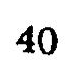40
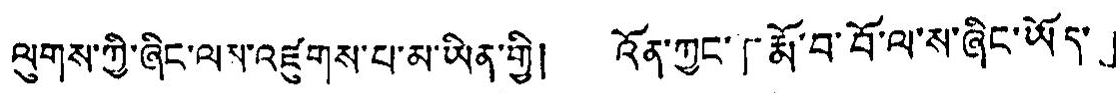ལུགས་ཀྱི་ཞིང་ལས་འཛུགས་པ་མ་ཡིན་གྱི། འོན་ཀྱང་「རྨོ་བ་བོ་ལ་ས་ཞིང་ཡོད་」
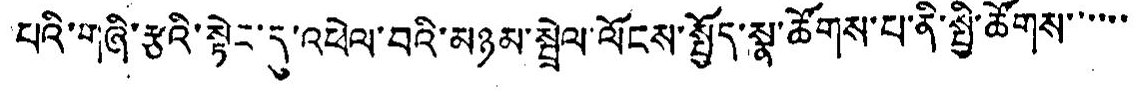པའི་གཞི་རྩའི་སྟེང་དུ་འཕེལ་བའི་མཉམ་སྦྲེལ་ལོངས་སྤྱོད་སྣ་ཚོགས་པ་ནི་སྤྱི་ཚོགས་་་་་་
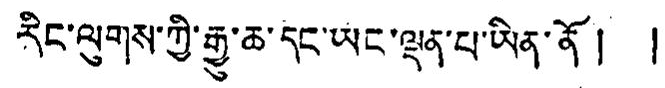རིང་ལུགས་ཀྱི་རྒྱུ་ཆ་དང་ཡང་ལྡན་པ་ཡིན་ནོ། །
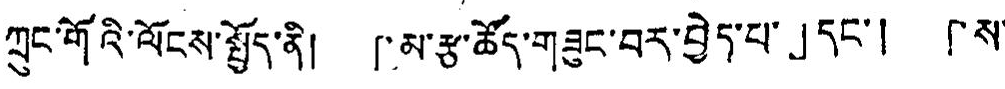ཀྲུང་གོའི་ལོངས་སྤྱོད་ནི། 「མ་རྩ་ཚོད་གཟུང་བར་བྱེད་པ་」དང་། 「ས་
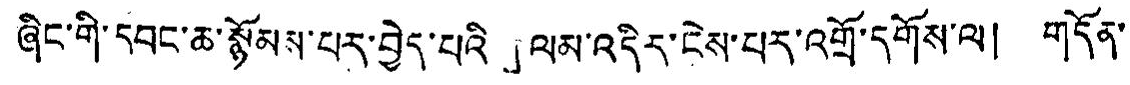ཞིང་གི་དབང་ཆ་སྙོམས་པར་བྱེད་པའི་」ལམ་འདིར་ངེས་པར་འགྲོ་དགོས་ལ། གདོན་
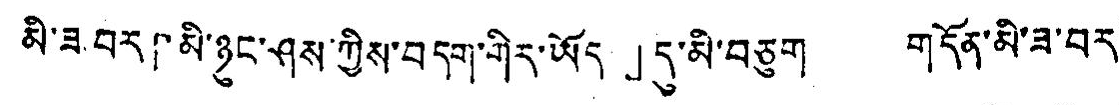མི་ཟ བར「མི་ཉང་ཤས་ཀྱིས་བདག་གིར་ཡོད」དུ་མི་བཅུག གདོན་མི་ཟ་བར་
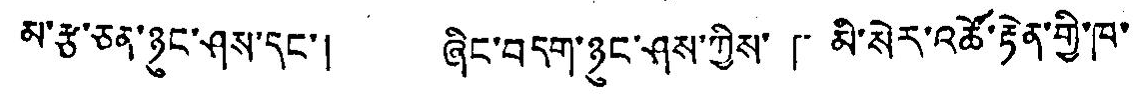མ་རྩ་ཅན་ཉུང་ཤས་དང་། ཞིང་བདག་ཉུང་ཤས་ཀྱིས་「མི་སེར་འཚོ་རྟེན་གྱི་ཁ་
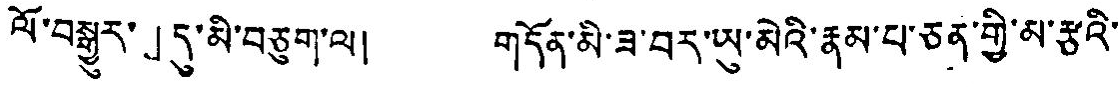ལོ་བསྒྱུར་」དུ་མི་བཅུག་ལ། གདོན་མི་ཟ་བར་ཡུ་མེའི་རྣམ་པ་ཅན་གྱི་མ་རྩའི་
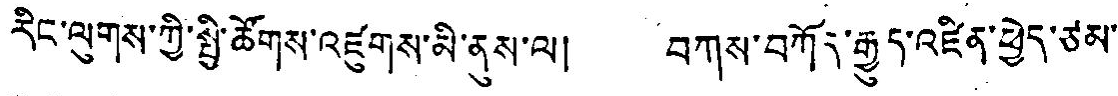རིང་ལུགས་ཀྱི་སྤྱི་ཚོགས་འཛུགས་མི་ནུས་ལ། བཀས་བཀོར་རྒྱུད་འཛིན་ཕྱེད་ཙམ་
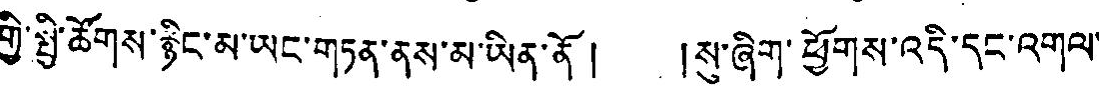ཀྱི་སྤྱི་ཚོགས་རྙིང་མ་ཡང་གཏན་ནས་མ་ཡིན་ནོ། །སུ་ཞིག་ཕྱོགས་འདི་དང་འགལ་
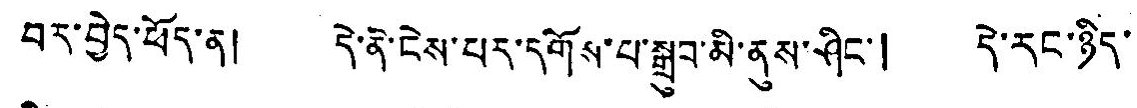བར་བྱེད་ཕོད་ན། དེ་ནི་ངེས་པར་དགོས་པ་སྒྲུབ་མི་ནུས་ཤིང་། དེ་རང་ཉིད་
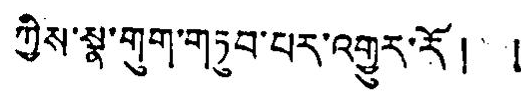ཀྱིས་སྣ་གུག་གཏུབ་པར་འགྱུར་རོ། །
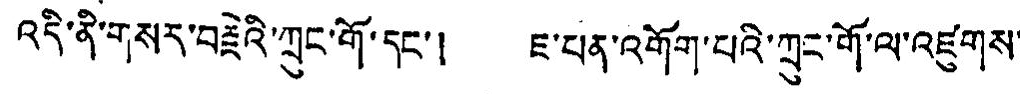འདི་ནི་གསར་བརྗེའི་ཀྲུང་གོ་དང་། ཇ་པན་འགོག་པའི་ཀྲུང་གོ་ལ་འཛུགས་
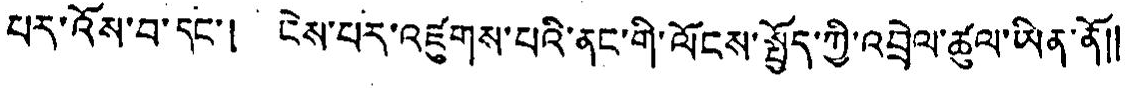པར་འོས་བ་དང་། ངེས་པར་འཛུགས་པའི་ནང་གི་ལོངས་སྤྱོད་ཀྱི་འབྲེལ་ཚུལ་ཡིན་ནོ༎
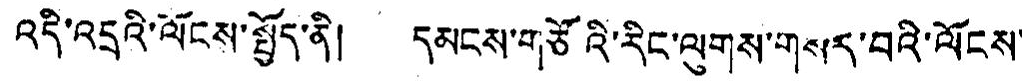འདི་འདྲའི་ལོངས་སྤྱོད་ནི། དམངས་གཙོའི་རིང་ལུགས་གསར་བའི་ལོངས་
